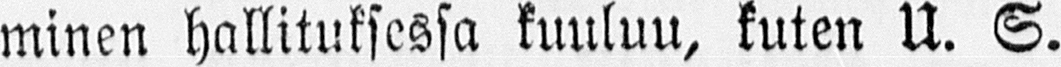minen hallituksessa kuuluu, kuten U. S.
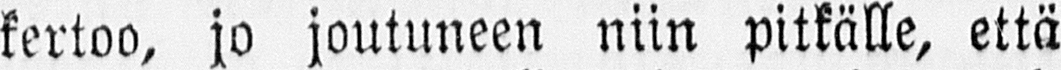kertoo, jo joutuneen niin pitkälle, että
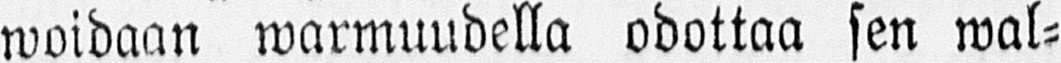woidaan warmuudella odottaa sen wal-
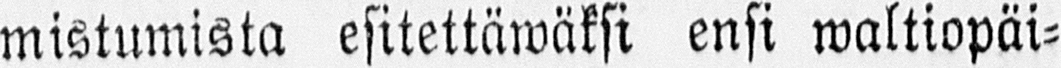mistumista esitettäwäksi ensi waltiopäi-
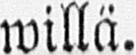willä.
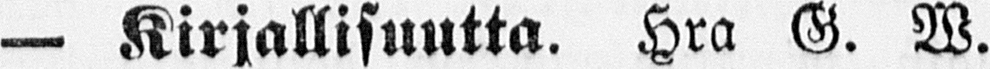— Kirjallisuutta. Hra G. W.
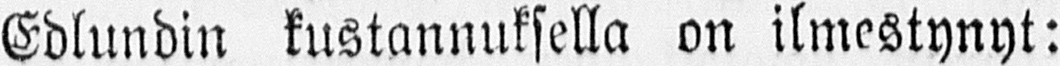Edlundin kustannuksella on ilmestynyt:
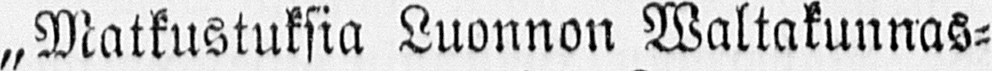„Matkustuksia Luonnon Waltakunnas-
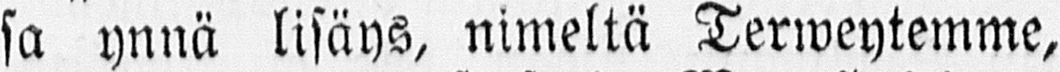sa ynnä lisäys, nimeltä Terweytemme,
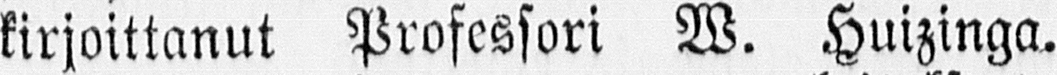kirjoittanut Professori W. Huizinga.
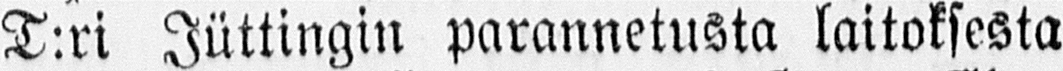T:ri Jüttingin parannetusta laitoksesta
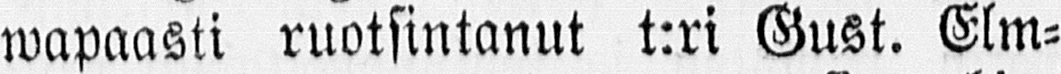wapaasti ruotsintanut t:ri Gust. Elm-
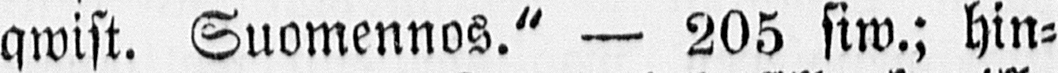qwist. Suomennos." — 205 siw.; hin-
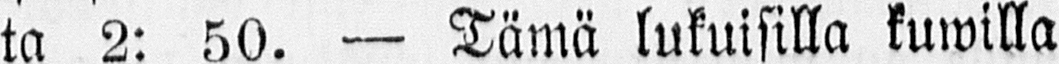ta 2: 50. — Tämä lukuisilla kuwilla
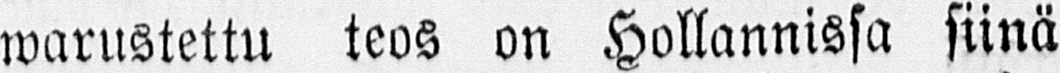warustettu teos on Hollannissa siinä
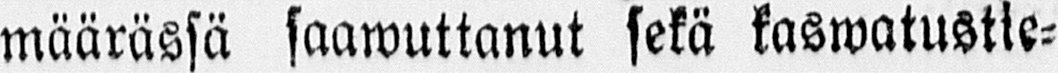määrässä saawuttanut sekä kaswatustie-
